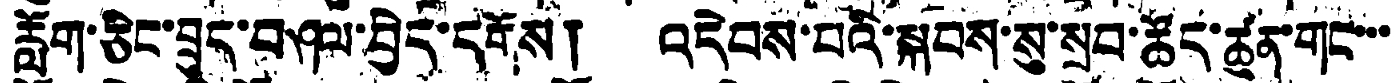རློག་ཅིང་བྲུད་བཤལ་བྱེད་དགོས། འདེབས་པའི་སྐབས་སུ་སྲབ་ཚོད་ཚུན་གང་་་
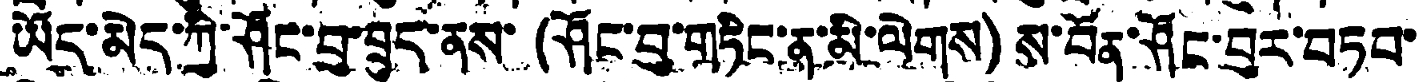ཡོད་མེད་ཀྱི་ཤོང་བུ་བྲུད་ནས་(ཤོང་བུ་གཏིང་ན་མི་ལེགས) ས་བོན་ཤོང་བུར་བཏབ་
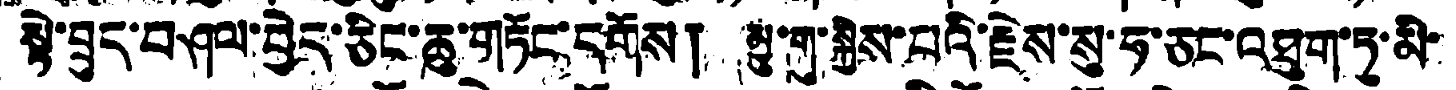སྟེ་བྲུད་བཤལ་བྱེད་ཅིང་ཆུ་གཏོང་དགོས། མྱུ་གུ་སྐྱེས་བའི་རྗེས་སུ་ཧ་ཅང་འཐུག་ཏུ་མི་
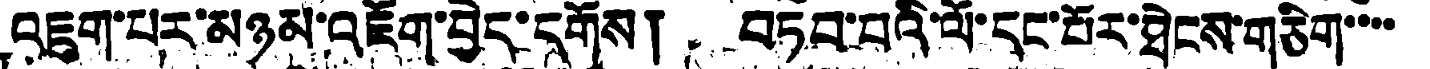འཇུག་པར་མཉམ་འཇོག་བྱེད་དགོས། བཏབ་བའི་ལོ་དང་པོར་ཐེངས་གཅིག་་་་
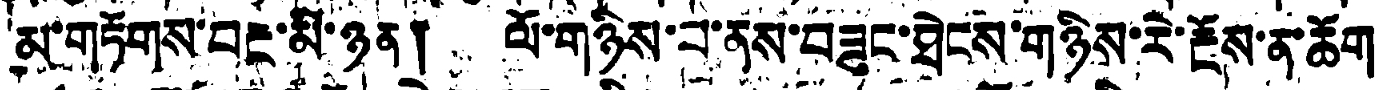མ་གཏོགས་བརྔ་མི་ཉན། ལོ་གཉིས་པ་ནས་བཟུང་ཐེངས་གཉིས་རེ་རྔོས་ན་ཆོག
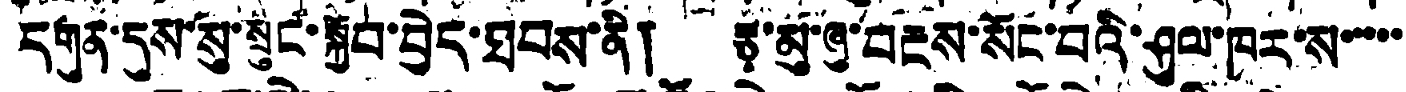དགུན་དུས་སུ་སྲུང་སྐྱོབ་བྱེད་ཐབས་ནི། རྩྭ་མུ་ཞུ་བརྔས་སོང་བའི་ཤུལ་ཁར་ས་་་་་
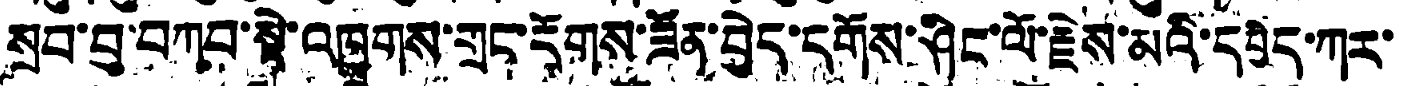སྲབ་བུ་བཀབ་སྟེ་འཁྲུགས་གྲང་དོགས་ཟོན་བྱེད་དགོས་ཤིང་ལོ་རྗེས་མའི་དཔྱིད་ཀར་
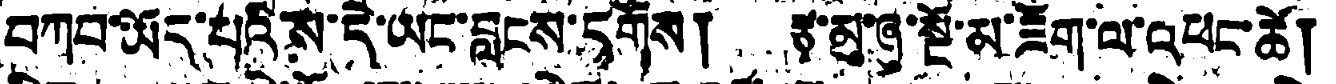བཀབ་ཡོད་པའི་ས་དེ་ཡང་བླངས་དགོས། རྩྭ་མུ་ཞུ་སྔོ་མ་ཟོག་ལ་འཕང་ཚེ།
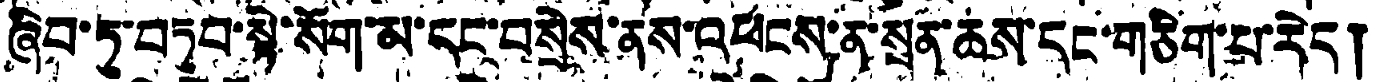ཞིབ་ཏུ་བཏུབ་སྟེ་སོག་མ་དང་བསྲེས་ནས་འཕངས་ན་སྲན་ཆས་དང་གཅིག་པ་རེད།
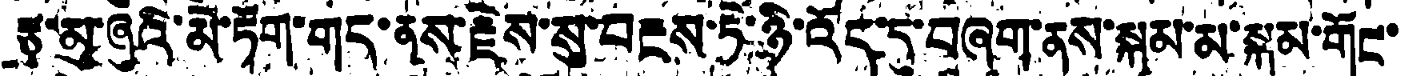རྩྭ་མུ་ཞུའི་མེ་ཏོག་གད་ནས་རྗེས་སུ་བརྔས་ཏེ་ཉི་འོད་དུ་བཞག་ནས་སྐམ་མ་སྐམ་གོང་
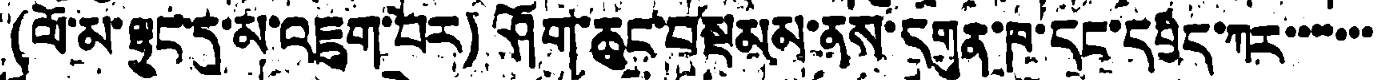(ལོ་མ་ལྷུང་དུ་མ་འཇུག་པོར) ཤོག་ཆུང་བསྡམམ་ནས་དགུན་ཁ་དང་དཔྱིད་ཀར་་་་་་་་་
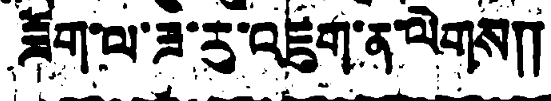ཟོག་ལ་ཟ་རུ་འཇུག་ན་ལེགས།།
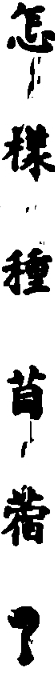怎 樣 種 苜 蓿 ？
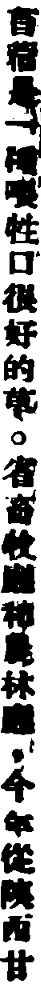苜蓿是一種喂牲口很好的草。省畜牧廳和農林廳，今年從陝西甘
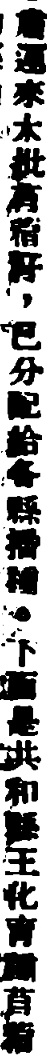肅運來大批苜蓿籽，已分配給各縣播種。下面是共和縣王化育種苜蓿
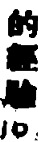的經驗。
